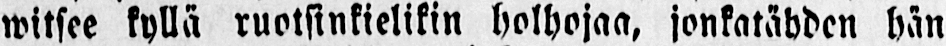witsee kyllä ruotsinkielikin holhojaa, jonkatähden hän
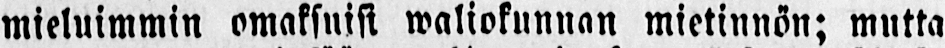mieluimmin omaksuisi waliokunnan mietinnön; mutta
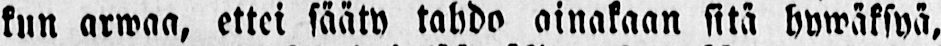kun arwaa, ettei sääty tahdo ainakaan sitä hyvwäksyä,
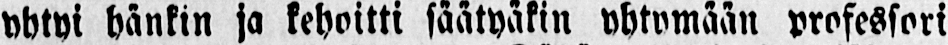yhtyi hänkin ja kehoitti säätyäkin yhtymään professori
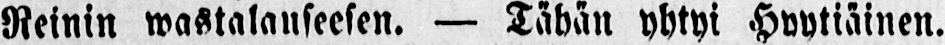Reinin wastalauseesen. — Tähän yhtyi Hyytiäinen.
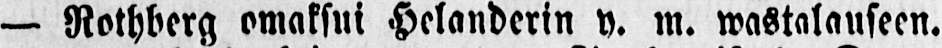— Rothberg omaksui Helanderin y. m. wastalauseen.
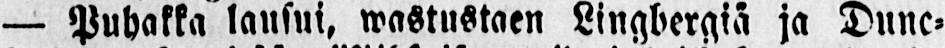— Puhakka lausui, wastustaen Lingbergiä ja Dunc-
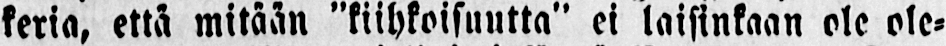keria, että mitään ” kiihkoisuutta” ei laisinkaan ole ole-
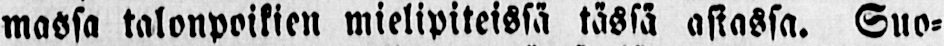massa talonpoikien mielipiteissä tässä asiassa. Suo-
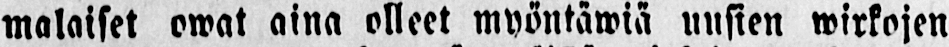malaiset owat aina olleet myöntäwiä uusien wirkojen
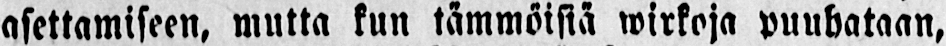asettamiseen, mutta kun tämmöisiä wirkoja puuhataan,
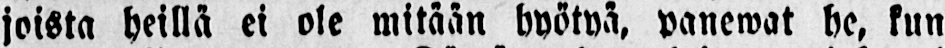joista heillä ei ole mitään hyötyä, panewat he, kun
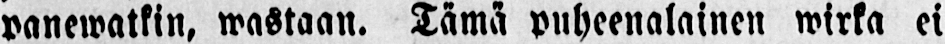panewatkin, wastaan. Tämä puheenalainen wirka ei
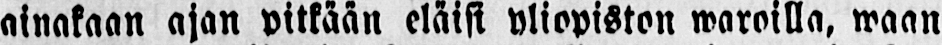ainakaan ajan pitkään eläisi yliopiston waroilla, waan
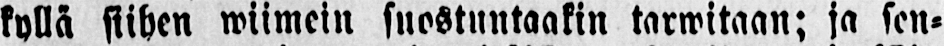kyllä siihen wiimein suostuntaakin tarwitaan; ja sen-
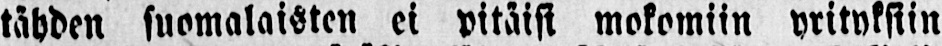tähden suomalaisten ei pitäisi mokomiin yrityksiin
